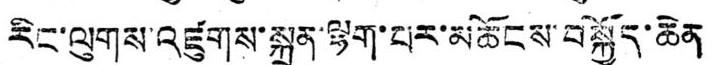རིང་ལུགས་འཛུགས་སྐྲུན་ལྷག་པར་མཆོངས་བསྐྱོད་ཆེན
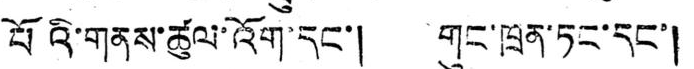པོའི་གནས་ཚུལ་འོག་དང་། གུང་ཁྲན་ཏང་དང་།
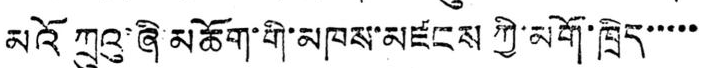མའོ ཀྲུའུ་ཞི་མཆོག་གི་མཁས་མཛངས ཀྱི་མགོ་ཁྲིད་་་་་
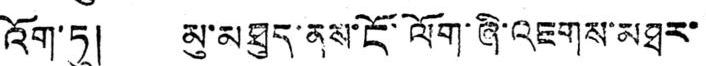འོག་ཏུ། མུ་མཐུད་ནས་ངོ་ལོག་ཞི་འཇགས་མཐར་
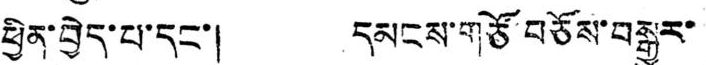ཕྱིན་བྱེད་པ་དང་། དམངས་གཙོ བཅོས་བསྒྱུར་
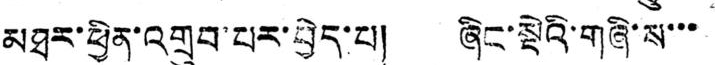མཐར་ཕྱིན་འགྲུབ་པར་བྱེད་པ། ཞིང་སྡེའི་གཞི་ས་་་
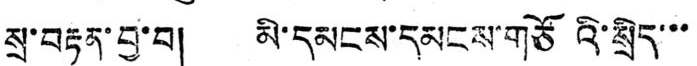སྲ་བརྟན་བྱ་བ། མི་དམངས་དམངས་གཙོའི་སྲིད་་་
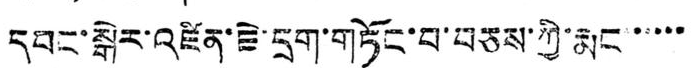དབང་སྒེར་འཛིན་ཇེ་དྲག་གཏོང་བ་བཅས་ཀྱི་རྨང་་་་་་
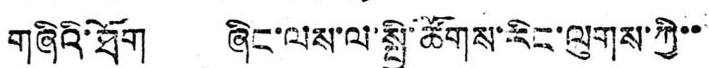གཞིའི་ཐོག ཞིང་ལས་ལ་སྤྱི་ཚོགས་རིང་ལུགས་ཀྱི་་
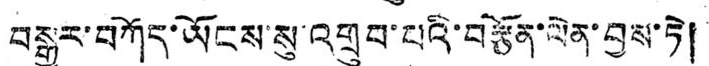བསྒྱུར་བཀོད་ཡོངས་སུ་འགྲུབ་པའི་བརྩོན་ལེན་བྱས་ཏེ།
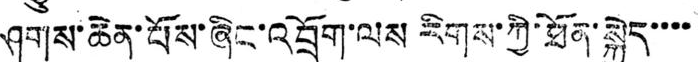ཤུགས་ཆེན་པོས་ཞིང་འབྲོག་ལས རིགས་ཀྱི་ཐོན་སྐྱེད་་་་
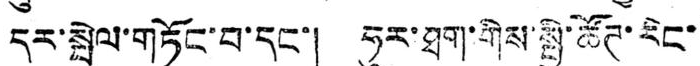དར་སྤེལ་གཏོང་བ་དང་། ཧུར་ཐག་གིས་སྤྱི་ཚོཊ་རིང་
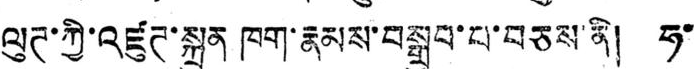ལུཊ་ཀྱི་འཛུཊ་སྐྲུན ཁག་རྣམས་བསྒྲུབ་པ་བཅས་ནི། ཧ་
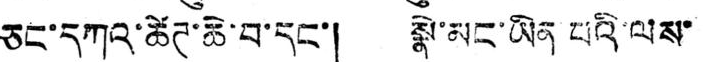ཅང་དཀའ་ཚེཊ་ཆེ་བ་དང་། སྣེ་མང་ཡིན པའི་ལས་
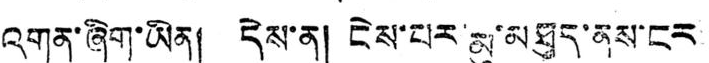འགན་ཞིག་ཡིན། དེས་ན། ངེས་པར་མུ་མཐུད་ནས་ངར
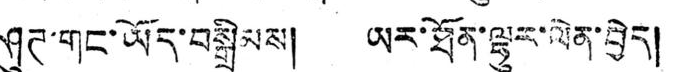ཤུཊ་གང་ཡོད་བསྒྲིམས། ཡར་ཐོན་ལྷུར་ལེན་བྱེད།
